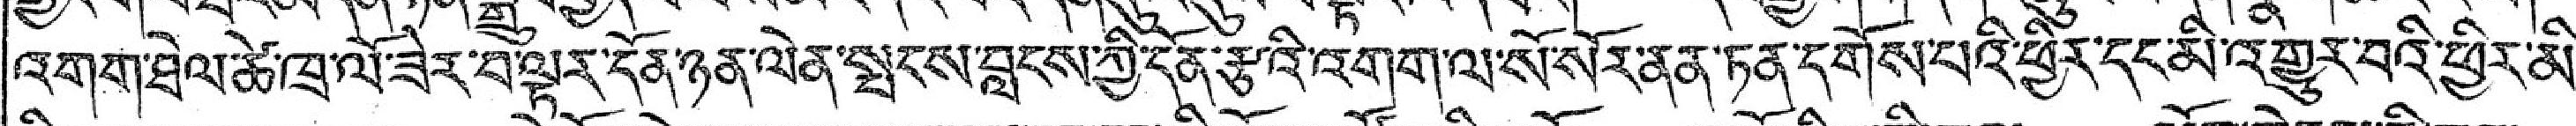འགག་ཐེལ་ཚེ་ཁྲ་ལོ་ཟེར་བ་ལྟར་དོན་ཉན་ལེན་སྤངས་བླངས་ཀྱི་དོན་རྩའི་འགག་ལ་སོ་སོར་ནན་ཏན་དགོས་པའི་ཕྱིར་དང་མི་འགྱུར་བའི་ཕྱིར་མ་
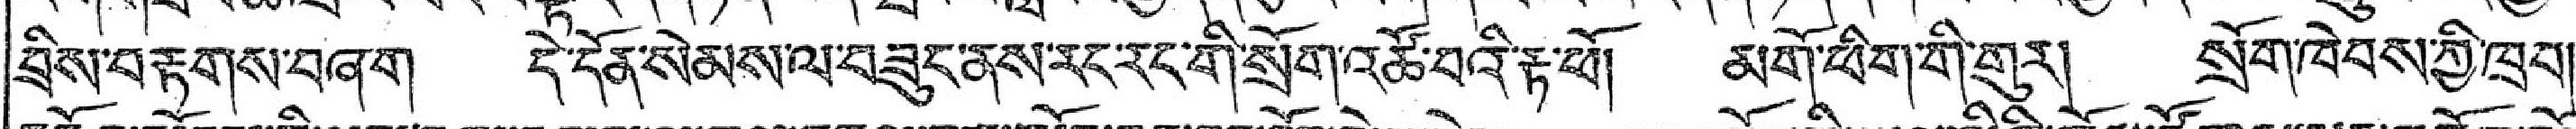བྲིས་བརྟགས་བཞག དེ་དོན་སེམས་ལ་བཟུང་ནས་རང་རང་གི་སྲོག་འཚོ་བའི་རྟ་ཕོ། མགོ་ཕིག་གི་གུར། སྲོག་ཁེབས་ཀྱི་ཁྲབ།
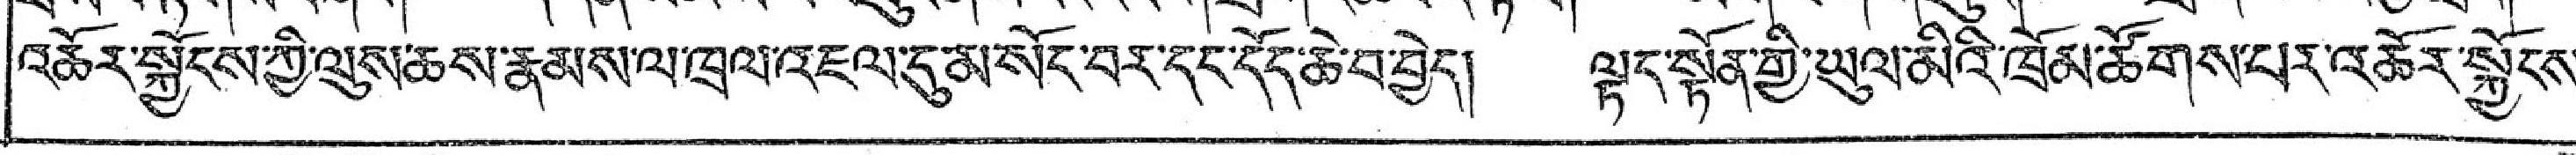འཚོར་སྐྱོངས་ཀྱི་ལུས་ཆས་རྣམས་ལ་ཁྲལ་འཇལ་དུ་མ་སོང་བར་དང་དོད་ཆེ་བ་བྱེད། ལྟད་སྟོན་གྱི་ཡུལ་མིའི་ཁྲོམ་ཚོགས་པར་འཚོར་སྐྱོངས་
